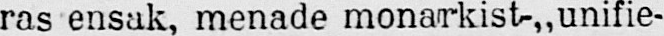ras ensak, menade monarkist-,,unifie-
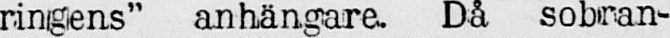rinigens” anhängare. Då sobran-
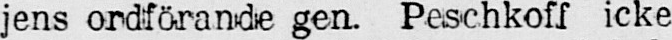jens ordförande gen. Peschkoff icke
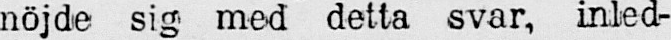nöjde sig med detta svar, inled-
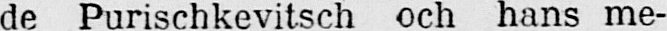de Purischkevitsch och hans me-
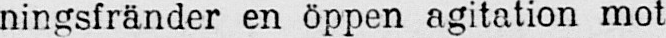ningsfränder en öppen agitation mot
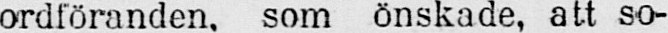ordföranden, som önskade, att so-
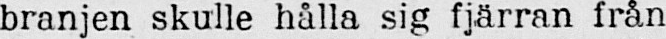branjen skulle hålla sig fjärran från
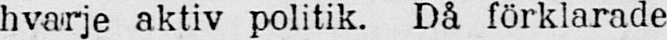hvarje aktiv politik. Då förklarade
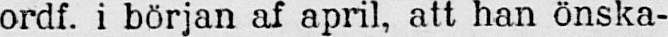ordf. i början af april, att han önska-
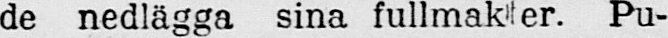de nedlägga sina fullmakter. Pu-
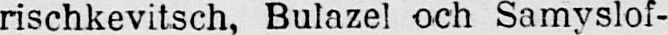rischkevitsch, Bulazel och Samyslof-
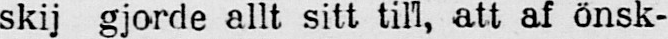skij gjorde allt sitt till, att af önsk-
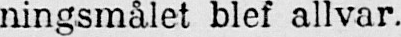ningsmålet blef allvar.
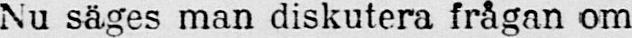Nu säges man diskutera frågan om
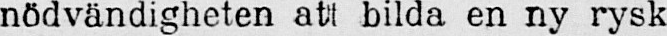nödvändigheten att bilda en ny rysk
